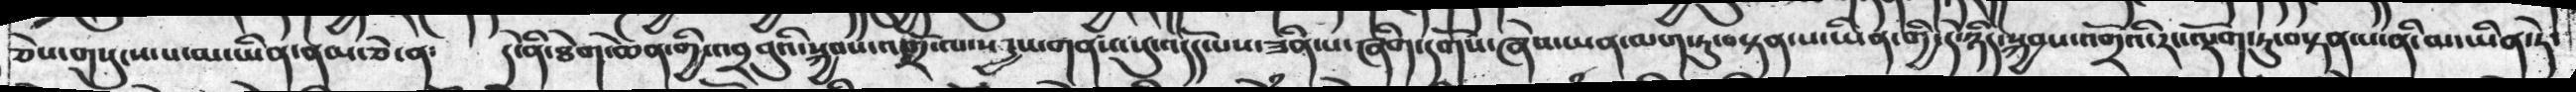ཅེས་གསུངས་པ་མ་ཡིན་ནམ་ཅེ་ན་  དེ་ནི་ཐེག་ཆེ་གྱི་འབྲབུའི་སྐྱབས་འགྲོ་ལ་སདྱས་གནས་སུ་འདོད་པས་ཟིན་པ་ཞིག་དགོས་ཞེས་ཡན་ལག་ཏུ་བསྟན་པ་ཡིན་གྱི་དེ་ཉིད་སྐྱབས་འགྲོའི་རང་ལྡོག་ཏུ་བསྟན་པ་ནི་མ་ཡིན་ཏེ་
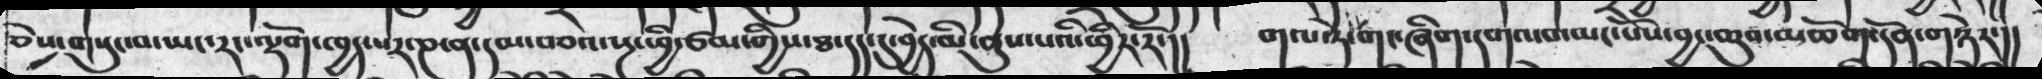ཅེས་གསུངས་བ་ཡང་རང་ལྡོག་ཁྱད་པར་ཎ་ན་དམ་བཅའ་སྔ་ཕྱི་ཙམ་གྱིས་ཐ་དད་དུ་བྱེད་མི་ནུས་པའི་ཕྱིར་རོ་།།  གལ་ཏེ་གང་ཞིག་དགའ་བ་མང་པོས་བྱང་ཆུབ་མཆོག་དོན་གཉེར་།།
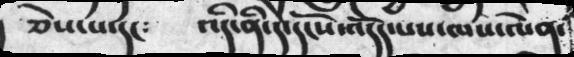ཅེས་པ་དང༴  འདི་ནི་དེ་དངོས་འདོད་པས་ཁས་ལེན་
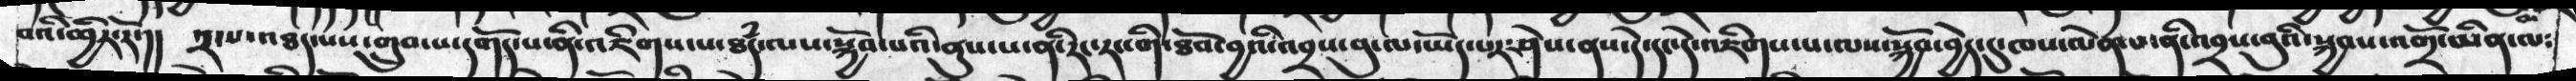བའི་ཕྱིར་རོ་།།  ༢་པ་འཐད་པས་གྲུབ་པ་དགོད་པ་ནི་འཇིགས་པ་ཐཾད་ལས་སྐྱོབ་པའི་ནུས་པ་ནི་རང་རང་གི་ཐོབ་བྱའི་འབྲས་བུ་ལ་ཡོད་པར་ཤེས་ནས་དེ་དང་དེ་འཇིགས་པ་ལས་སྐྱོབ་བྱེད་དུ་ཁས་ལེན་པ་ནི་འབྲས་བུའི་སྐྱབས་འགྲོ་མིན་ལ༴
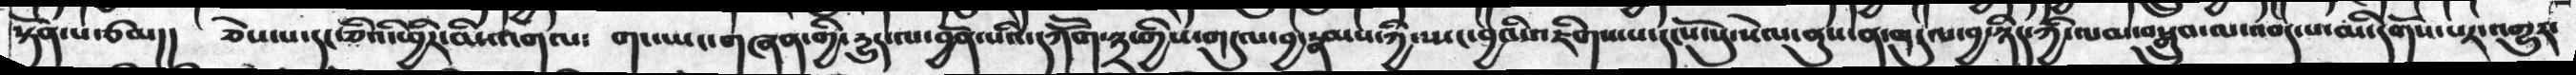སྟོན་པ་ཙམ།།  ཅེས་པ་དང་ཅེའི་ཕྱིར་མི་འགལ༴  གང་ཡང་གཞན་གྱི་རྱུད་ལ་བྱོན་པའི་དཀོོག་༣་གྱིས་གདུལ་བྱ་རྣམས་ཀྱི་ཡང་ཕྱིའི་འཇིགས་པ་དངོས་སུ་སེལ་ནུས་ན་གདུལ་བྱ་ཉིད་ཀྱི་ལམ་བསྒྲུབ་ལ་འབད་པ་མི་དགོས་པར་འགྱུར་
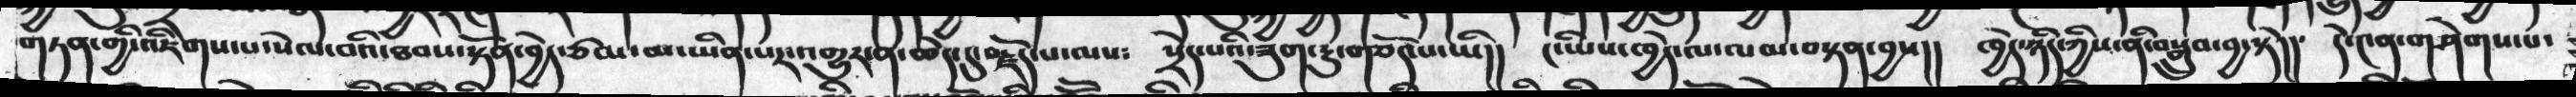གཏན་གྱི་འཇིགས་པ་སེལ་བའི་ཐབས་སྟོན་བྱེད་ཙམ་མ་ཡིན་པར་འགྱུར་ན་ཆེད་དུ་བརྗོད་པ་ལས༴  སྲིད་པའི་ཟུག་རྱུ་གཅོད་པ་ཡི།།  ང་ཡིས་ཁྱེད་ལ་ལམ་བསྟན་བྱས།།  ཁྱེད་ཉིད་ཀྱིས་ནི་བསྒྲུབ་བྱ་སྟེ།།  དེ་༤ན་གཤེགས་པ་
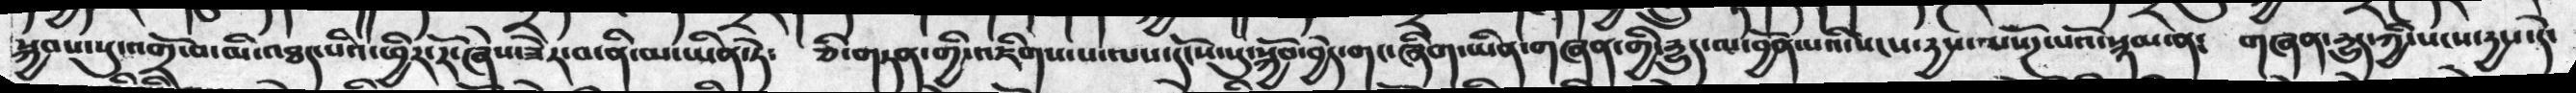སྐྱབས་སུ་འགྲོ་བ་མི་འཐད་པའི་ཕྱིར་རོ་ཞེས་ཟེར་བ་ནི་མ་ཡིན་ཏེ༴  ཅི་གཏན་གྱི་འཇིགས་པ་ལས་དངོས་སུ་སྐྱོབ་བྱེད་གང་ཞིག་ཡིན་གཞན་གྱི་རྱུད་ལ་བྱོན་པའི་སངས་དྱས་ལསོཌ་པའོ་སྙམ་ན༴  གཞན་རྱུད་ཀྱི་སངས་དྱས་དེ་
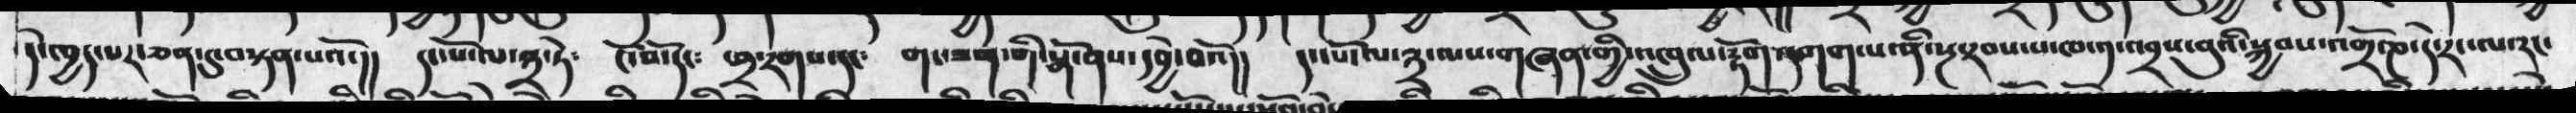དེ་ཁྱད་པར་ཅན་དུ་བསྟན་པའོ།།  དང་པོ་ལ་༢་ཏེ  དངབོ་དེ༴ ཕྲ་རགས་དང༴  གང་ཟག་གི་སྒོ་ནས་དབྱེ་བའོ།།  དང་པོ་ལ་༣་ལས་གཞན་གྱི་འཁྲུལ་རྡོག་དགག་པ་ནི་སྔ་རབས་པ་ཁ་༡་འབྲས་བུའི་སྐྱབས་འགྲོ་ཎ་དེ་རང་ལ་རང་
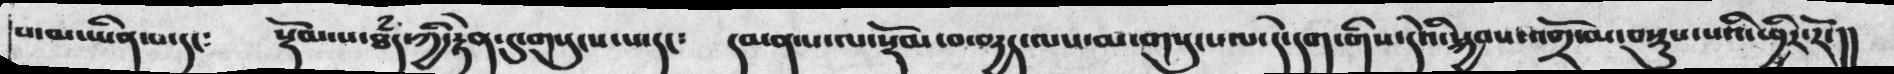པ་མ་ཡིན་པ་དང༴  སྡོམ་པ་ཐཾད་ཀྱི་སྟེན་དུ་གསུངས་པ་དང༴  དམན་པ་ལ་སྡོམ་བ་བརྱད་ལས་མ་གསུངས་ལ་དེ་དག་གི་དེའི་སྐྱས་འགྲོ་མ་བསྟུང་པའི་ཕྱིར་རོ་།།
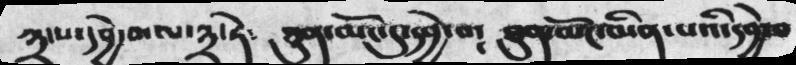༣་པ་དབྱེ་བ་ལ་༣་ཏེ༴   ཐུན་མོང་དུ་དབྱེ་བ༴   ཐུན་ནོང་མིན་པའི་དབྱེ་བ
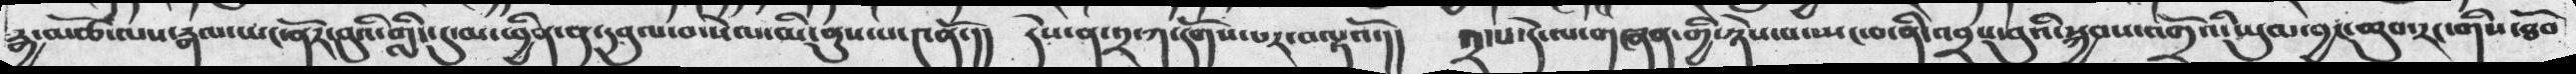རྒྱ་མཚོ་ལས་སྒལ་ཡང་ནོར་བུའི་གླིང་དུ་མ་ཕྱིན་ན་དབུལ་བ་སེམ་མི་ནུས་པ་༤ནོ་།།  དེས་ན་༢་ཀ་དགོ་པར་བལྟའོ་།།  ༢་པ་དེ་ལ་གཞན་གྱི་ཉེས་པ་ཡང་བ་ནི་འབྲས་བུའི་སྐྱབས་འགྲོའི་ཡུམ་བྱང་དུ་རང་གིས་ཐོབ
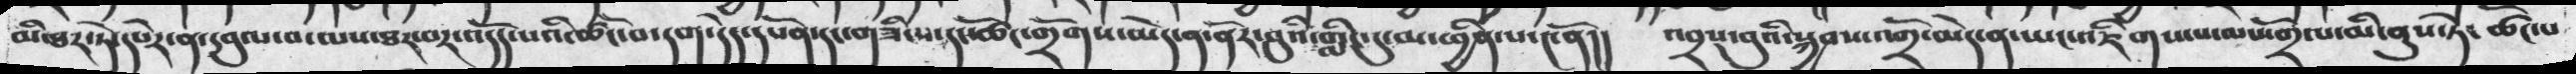མི་ཐར་ཏེ་དཔེར་ན་དབུལ་བ་ལས་ཐར་བར་འདོད་པའི་ཚོང་བ་དག་དེད་དཔོན་དང་གཟིངས་དང་ཚོང་གྲོགས་མེད་ན་ནོར་བུའི་གླིང་དུ་མ་ཕྱིན་པ་༤ནོ།།   འབྲས་བུའི་སྐྱབས་འགྲོ་མེད་ན་ཡང་འཇིགས་པ་ལས་གྲོལ་མི་ནུས་ཏེ་ཚེང་པ
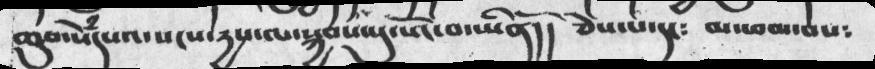ཆུབ་སེྃདཔའ་སངས་རྒྱས་ལ་སྐྱབས་སུ་སོང་བ་ཡིནོ།།  ཅེས་པ་དང༴   མ་ཕམ་པས༴
